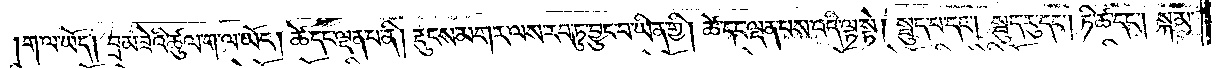ག་ལ་ཡོད། བྲམ་ཟེའི་ཚུལ་ག་ལ་ཡོད། ཚེ་དང་ལྡན་པ་ནི། རྡུངས་མགར་ལས་རབ་ཏུ་བྱུང་བ་ཡིན་གྱི། ཚེ་དང་ལྡན་པས་འདི་ལྟ་སྟེ། སྦུད་པ་དང༌། སྦུད་རུ་དང༌། ཏི་ཚ་དང༌། སྐམ་
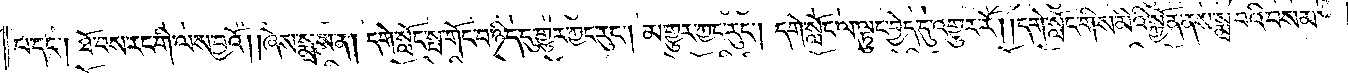པ་དང༌། ཐོ་བས་རང་གི་ལས་བྱའོ། །ཞེས་སྨྲས་ན། དགེ་སློང་སྤ་གོང་བ་ཉིད་དུ་གྱུར་ཀྱང་རུང༌། མ་གྱུར་ཀྱང་རུང༌། དགེ་སློང་ལ་ལྟུང་བྱེད་དུ་འགྱུར་རོ། །དགེ་སློང་གིས་མིའི་སྐྱོན་ནས་སྨྲ་བའི་བསམ་
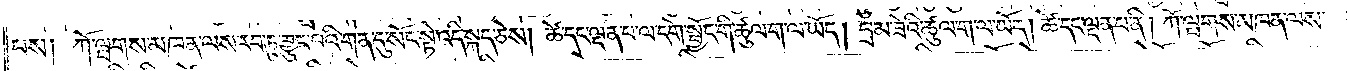པས། ཀོ་ལྤགས་མཁན་ལས་རབ་ཏུ་བྱུང་བའི་གན་དུ་སོང་སྟེ་འདི་སྐད་ཅེས། ཚེ་དང་ལྡན་པ་ལ་དགེ་སྦྱོང་གི་ཚུལ་ག་ལ་ཡོད། བྲམ་ཟེའི་ཚུལ་ག་ལ་ཡོད། ཚེ་དང་ལྡན་པ་ནི། ཀོ་ལྤགས་མཁན་ལས་
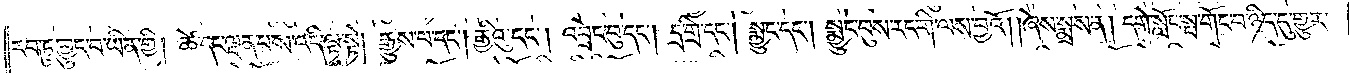རབ་ཏུ་བྱུང་བ་ཡིན་གྱི། ཚེ་དང་ལྡན་པས་འདི་ལྟ་སྟེ། རྒྱུས་པ་དང༌། རྒྱིའུ་དང༌། འབྲེང་བུ་དང༌། དྲ་གྲི་དང༌། སྨྱུང་དང༌། སྨྱུང་བུས་རང་གི་ལས་བྱའོ། །ཞེས་སྨྲས་ན། དགེ་སློང་སྤ་གོང་བ་ཉིད་དུ་གྱུར་
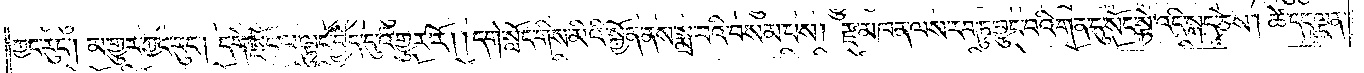ཀྱང་རུང༌། མ་གྱུར་ཀྱང་རུང༌། དགེ་སློང་ལ་ལྟུང་བྱེད་དུ་འགྱུར་རོ། །དགེ་སློང་གིས་མིའི་སྐྱོན་ནས་སྨྲ་བའི་བསམ་པས། རྫ་མཁན་ལས་རབ་ཏུ་བྱུང་བའི་གན་དུ་སོང་སྟེ་འདི་སྐད་ཅེས། ཚེ་དང་ལྡན་
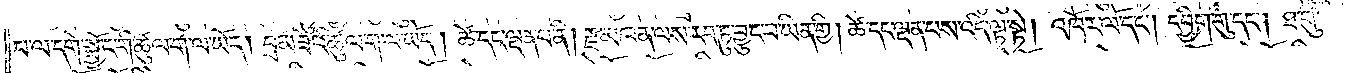པ་ལ་དགེ་སྦྱོང་གི་ཚུལ་ག་ལ་ཡོད། བྲམ་ཟེའི་ཚུལ་ག་ལ་ཡོད། ཚེ་དང་ལྡན་པ་ནི། རྫ་མཁན་ལས་རབ་ཏུ་བྱུང་བ་ཡིན་གྱི། ཚེ་དང་ལྡན་པས་འདི་ལྟ་སྟེ། འཁོར་ལོ་དང༌། དབྱིག་གུ་དང༌། ཐ་གུ་
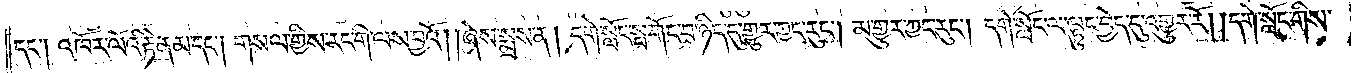དང༌། འཁོར་ལོའི་རྟེན་མ་དང༌། གསལ་གྱིས་རང་གི་ལས་བྱའོ། །ཞེས་སྨྲས་ན། དགེ་སློང་སྤ་གོང་བ་ཉིད་དུ་གྱུར་ཀྱང་རུང༌། མ་གྱུར་ཀྱང་རུང༌། དགེ་སློང་ལ་ལྟུང་བྱེད་དུ་འགྱུར་རོ། །དགེ་སློང་གིས་
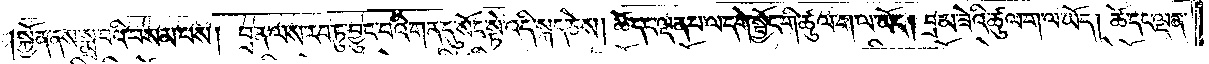སྐྱོན་ནས་སྨྲ་བའི་བསམ་པས། བྲན་ལས་རབ་ཏུ་བྱུང་བའི་གན་དུ་སོང་སྟེ་འདི་སྐད་ཅེས། ཚེ་དང་ལྡན་པ་ལ་དགེ་སྦྱོང་གི་ཚུལ་ག་ལ་ཡོད། བྲམ་ཟེའི་ཚུལ་ག་ལ་ཡོད། ཚེ་དང་ལྡན་
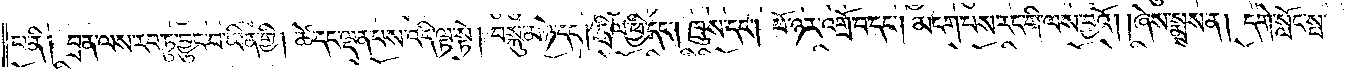པ་ནི། བྲན་ལས་རབ་ཏུ་བྱུང་བ་ཡིན་གྱི། ཚེ་དང་ལྡན་པས་འདི་ལྟ་སྟེ། བསྐུ་མཉེ་དང༌། དྲིལ་ཕྱི་དང༌། ཁྲུས་དང༌། ཕོ་ཉར་འགྲོ་བ་དང༌། མངག་པས་རང་གི་ལས་བྱའོ། །ཞེས་སྨྲས་ན། དགེ་སློང་སྤ་
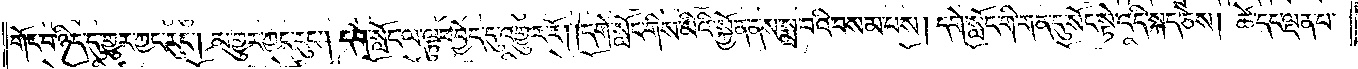གོང་བ་ཉིད་དུ་གྱུར་ཀྱང་རུང༌། མ་གྱུར་ཀྱང་རུང༌། དགེ་སློང་ལ་ལྟུང་བྱེད་དུ་འགྱུར་རོ། །དགེ་སློང་གིས་མིའི་སྐྱོན་ནས་སྨྲ་བའི་བསམ་པས། དགེ་སློང་གི་གན་དུ་སོང་སྟེ་འདི་སྐད་ཅེས། ཚེ་དང་ལྡན་པ་
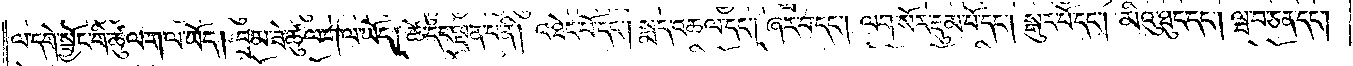ལ་དགེ་སྦྱོང་གི་ཚུལ་ག་ལ་ཡོད། བྲམ་ཟེ་ཚུལ་ག་ལ་ཡོད། ཚེ་དང་ལྡན་པ་ནི། འཐེང་པོ་དང༌། སྨད་འཆལ་དང༌། ཞར་བ་དང༌། ལག་སོར་རྡུམ་པོ་དང༌། སྒུར་པོ་དང༌། མིའུ་ཐུང་དང༌། ལྦ་བ་ཅན་དང༌།
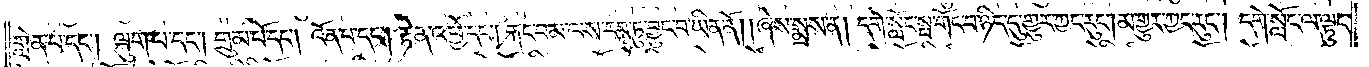གླེན་པ་དང༌། ལྐུག་པ་དང༌། གྲུམ་པོ་དང༌། འོན་པ་དང༌། རྟེན་འཕྱེ་དང༌། རྐང་བམ་ལས་རབ་ཏུ་བྱུང་བ་ཡིན་ནོ། །ཞེས་སྨྲས་ན། དགེ་སློང་སྤ་གོང་བ་ཉིད་དུ་གྱུར་ཀྱང་རུང༌། མ་གྱུར་ཀྱང་རུང༌། དགེ་སློང་ལ་ལྟུང་
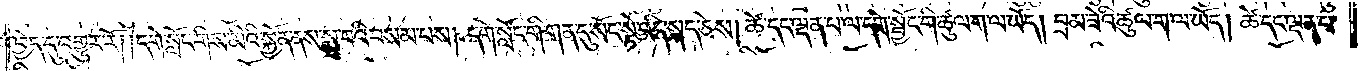བྱེད་དུ་འགྱུར་རོ། །དགེ་སློང་གིས་མིའི་སྐྱོན་ནས་སྨྲ་བའི་བསམ་པས། དགེ་སློང་གི་གན་དུ་སོང་སྟེ་འདི་སྐད་ཅེས། ཚེ་དང་ལྡན་པ་ལ་དགེ་སྦྱོང་གི་ཚུལ་ག་ལ་ཡོད། བྲམ་ཟེའི་ཚུལ་ག་ལ་ཡོད། ཚེ་དང་ལྡན་པ་
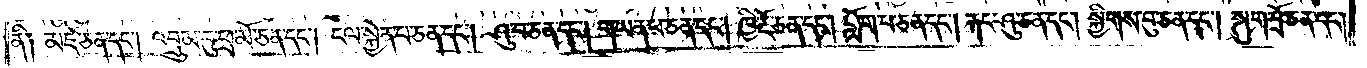ནི། མཛེ་ཅན་དང༌། འབྲུམ་བུ་ཕྲ་མོ་ཅན་དང༌། ངལ་སྐྱེན་པ་ཅན་དང༌། ཤུ་བ་ཅན་དང༌། གཡན་པ་ཅན་དང༌། ཁྱི་རྡོ་ཅན་དང༌། གློག་པ་ཅན་དང༌། རྐང་ཤུ་ཅན་དང༌། སྐྱིགས་བུ་ཅན་དང༌། སྐྱུག་བྲོ་ཅན་དང་
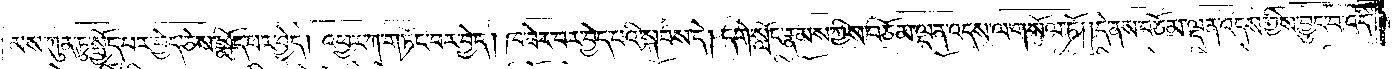མས་ཀུན་ཏུ་སྤྱོད་པར་བྱེད་ཅེས་སྨོད་པར་བྱེད། འཕྱར་ཀ་གཏོང་བར་བྱེད། ཁ་ཟེར་བར་བྱེད་པའི་སྐབས་དེ། དགེ་སློང་རྣམས་ཀྱིས་བཅོམ་ལྡན་འདས་ལ་གསོལ་ཏོ། །དེ་ནས་བཅོམ་ལྡན་འདས་ཀྱིས་བྱུང་བ་འདི་
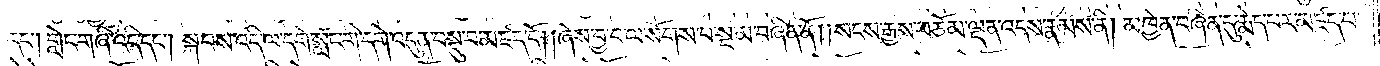དང༌། གླེང་གཞི་འདི་དང༌། སྐབས་འདི་ལ་དགེ་སློང་གི་དགེ་འདུན་བསྡུ་བ་མཛད་དོ། །ཞེས་བྱ་བ་ལ་སོགས་པ་སྔ་མ་བཞིན་ནོ། །སངས་རྒྱས་བཅོམ་ལྡན་འདས་རྣམས་ནི། མཁྱེན་བཞིན་དུ་རྨེད་པར་མཛད་པ་
